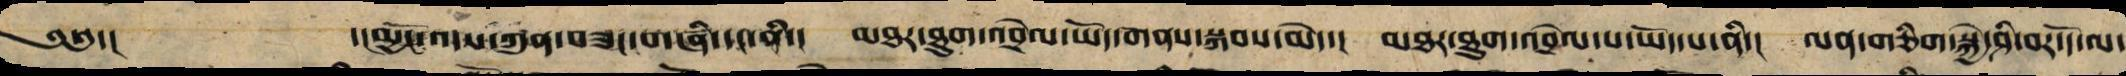༄༅་།  ་།མྱང་འདས་ཀུན་བཟང་གཞི་དང་ནི་། མཐར་ཐུག་འབྲེལ་ཡོད་གནས་སྐབས་མེད་། མཐར་ཐུག་འབྲེལ་བ་ཡོད་པ་ནི་། ལན་ཅིག་སྐྱེ་ཤི་བར་དོ་ལ་
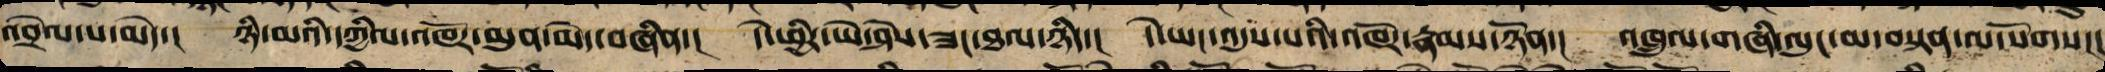འབྲེལ་བ་མེད་། ཉི་མའི་དཀྱིལ་འཁོར་མུན་མེད་བཞིན་། དེ་ཕྱིར་ཡེ་ཤེས་ཟང་ཐལ་ཉིད་། དེ་ཡང་འདུས་པའི་འཁོར་རྣམས་ཉོན་། འཁྲུལ་གཞི་ལུང་མ་བསྟན་ལ་སོགས་།
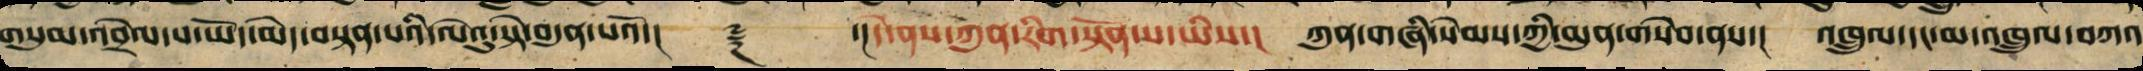གསུམ་འབྲེལ་བ་ཡོད་མེད་བསྟན་པའི་ལེའུ་སྟེ་བདུན་པའོ་།། ༈ ་།།དེ་ནས་ཀུན་རིག་སྟོན་པ་ཡིས་། ཀུན་གཞི་སེམས་ཀྱི་མུན་གསེབ་ནས་། འཁྲུལ་དང་མ་འཁྲུལ་བཀའ་
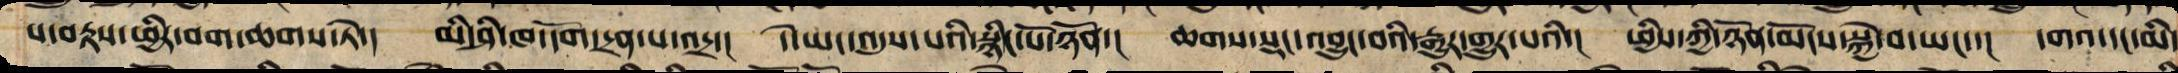པ་བརྟས་ཕྱིར་བག་ཆགས་ཏེ་། མི་ཤི་ཁ་དོག་དྲན་པ་འདྲ་། དེ་ཡང་འདུས་པའི་སྙིང་པོ་ཉོན་། ཆགས་སྡང་འབྱུང་བའི་རྒྱུར་གྱུར་པའི་། ཕྱིས་ཀྱི་ཉོན་མོངས་སྐྱེ་བ་ཡང་་། དགའ་དང་མི་
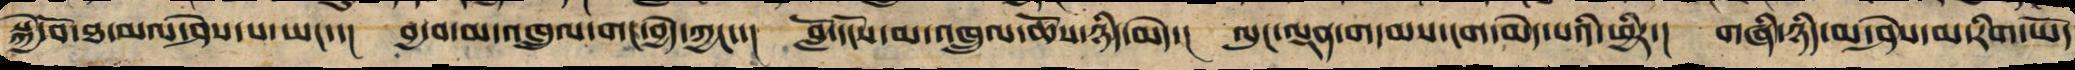སྐྱེ་བོ་ཐ་མལ་ཤེས་པ་ཡང་་། བྱ་བ་མ་འཁྲུལ་གང་བྱེད་ཀྱང་་། བློ་དངོས་མ་འཁྲུལ་ཆོས་ཉིད་མེད་། ལུང་ལྡན་གདམས་ངག་མེད་པའི་ཕྱིར་། གཞི་ཉིད་མ་ཤེས་མ་རིག་ཡོད
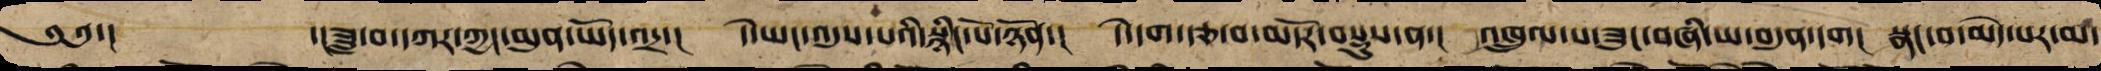༄༅་།  ་།ཟླ་བ་དཀར་ཀྱང་མུན་ཡོད་འདྲ་། དེ་ཡང་འདུས་པའི་སྙིང་པོ་ཉོན་། དེ་དག་རྩ་བ་མདོར་བསྡུ་ན་། འཁྲུལ་པ་ཟུང་བཞི་ཡ་བདུན་དག། སྣང་བ་མེད་པར་མ་
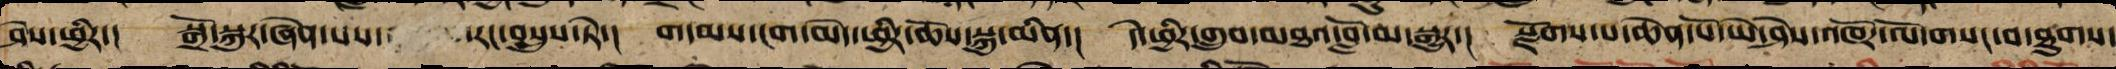ཤེས་ཕྱིར་། སྒྲོ་སྐུར་ཞེན་པས་རང་བསླུས་ཏེ་། གདམས་ངག་མེད་ཕྱིར་ཆོས་སྐུ་མིན་། དེ་ཕྱིར་གྲུབ་མཐས་བློ་མ་བསྒྱུར་། སྫོགས་པ་ཆེན་པོ་ཡེ་ཤེས་འཁོར་ལོ་གསང་བ་ཐུགས་
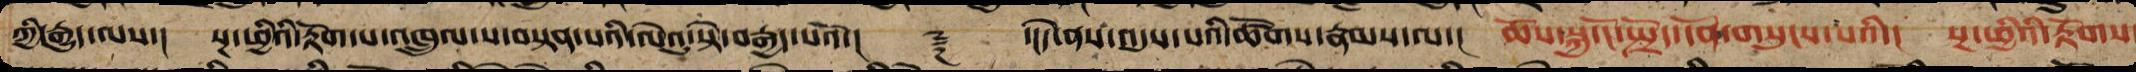ཀྱི་རྒྱུད་ལས་། སྔ་ཕྱིའི་རྟོག་པ་འཁྲུལ་པ་བསྟན་པའི་ལེའུ་སྟེ་བརྒྱད་པའོ་།། ༈ ་།།དེ་ནས་འདུས་པའི་ཚོགས་རྣམས་ལ་། ཆོས་སྐུ་ངོ་སྤྲོད་དོན་གསུངས་པའི་། སྔ་ཕྱིའི་རྟོགས
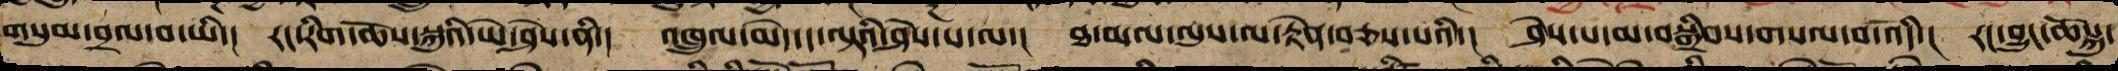གསུམ་བྲལ་བ་ཡི་། རང་རིག་ཆོས་སྐུའི་ཡེ་ཤེས་ནི་། འཁྲུལ་མེད་ད་ལྟའི་ཤེས་པ་ལ་། ཐ་མལ་ལུས་ལ་རྟེན་བཅས་པའི་། ཤེས་པ་མ་བསྒྲིབས་གསལ་བ་འདི་། རང་བྱུང་ཆོསྐུ་
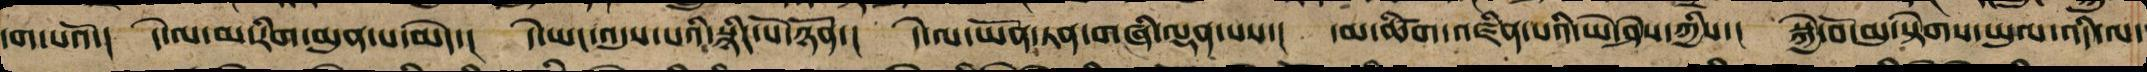དག་པའོ་། དེ་ལ་མ་རིག་མུན་པ་མེད་། དེ་ཡང་འདུས་པའི་སྙིང་པོ་ཉོན་། དེ་ལ་ཡོན་ཏན་བཞི་ལྡན་པས་། དམ་ཚིག་འཛིན་པའི་ཡེ་ཤེས་ཀྱིས་། སྐྱེ་བོ་མུ་སྟེགས་ཡུལ་འདི་ལ་
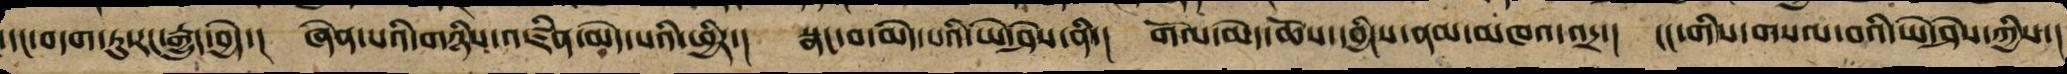་དང་བདག་ཏུ་རང་རྒྱུད་བྱེད་། ཞེན་པའི་གཉིས་འཛིན་མེད་པའི་ཕྱིར་། སྣང་བ་མེད་པའི་ཡེ་ཤེས་ནི་། གོལ་མེད་ཆོས་དབྱིངས་ནམ་མཁའ་འདྲ་། ངང་གིས་གསལ་བའི་ཡེ་ཤེས་ཀྱིས་།
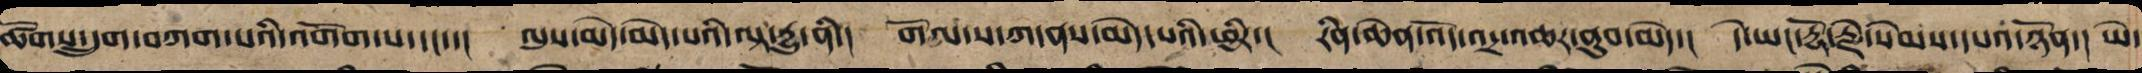ཚོགས་དྲུག་བཀག་པའི་འགོག་པ་དང་་། ལུས་མེད་མེད་པའི་ལྟ་རྒྱུ་ནི་། གོལ་ས་ཀ་ནས་མེད་པའི་ཕྱིར་། རིན་ཆེན་འོད་འདྲ་འཆར་ནུབ་མེད་། དེ་ཡང་རྡོ་རྗེ་སེམས་དཔའ་ཉོན་། ཡེ་
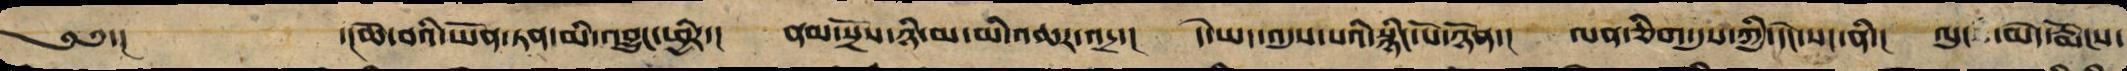༄༅་། ་།ཆེ་བའི་ཡོན་ཏན་མི་འབྱུང་ཕྱིར་། ནམ་སྲོས་ཉི་མ་མི་འཆར་འདྲ་། དེ་ཡང་འདུས་པའི་སྙིང་པོ་ཉོན་། ལན་ཅིག་དུས་ཀྱི་དེང་སང་ནི་། ལུང་མེད་རྨོངས་
